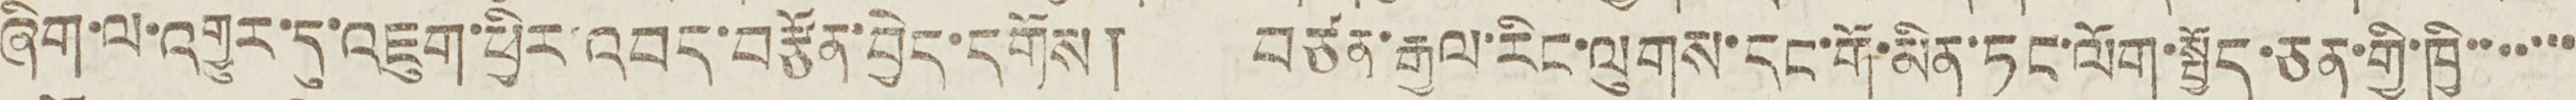ཞིག་ལ་འགྱུར་དུ་འཇུག་ཕྱིར་འབད་བརྩོན་བྱེད་དགོས། བཙན་རྒྱལ་རིང་ལུགས་དང་གོ་མིན་ཏང་ལོག་སྤྱོད་ཅན་གྱི་ཁྱི་་་་་་་
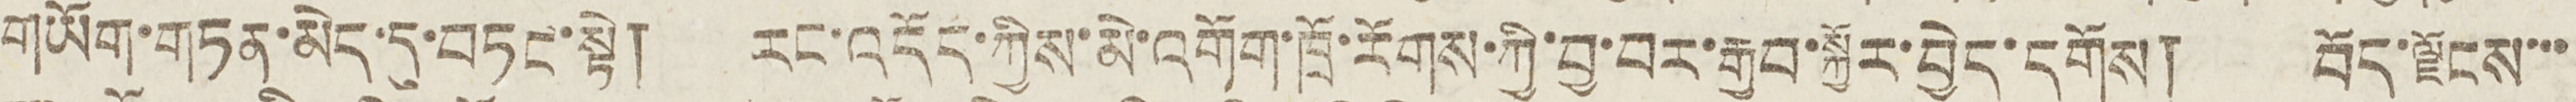གཡོག་གཏན་མེད་དུ་བཏང་སྟེ། རང་འདོད་ཀྱིས་མེ་འགོག་ཁྲོ་རོགས་ཀྱི་བྱ་བར་རྒྱབ་སྐྱོར་བྱེད་དགོས། བོད་ལྗོངས་་་
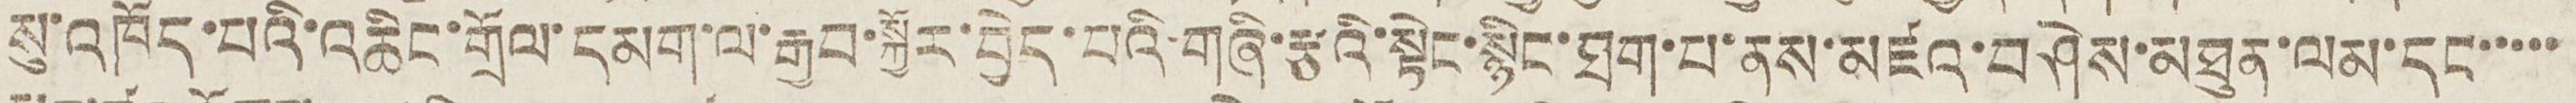སུ་འཁོད་པའི་འཆིང་གྲོལ་དམག་ལ་རྒྱབ་སྐྱོར་བྱེད་པའི་གཞི་རྩའི་སྟེང་སྙིང་ཐག་པ་ནས་མཛའ་བཤེས་མཐུན་ལམ་དང་་་་་
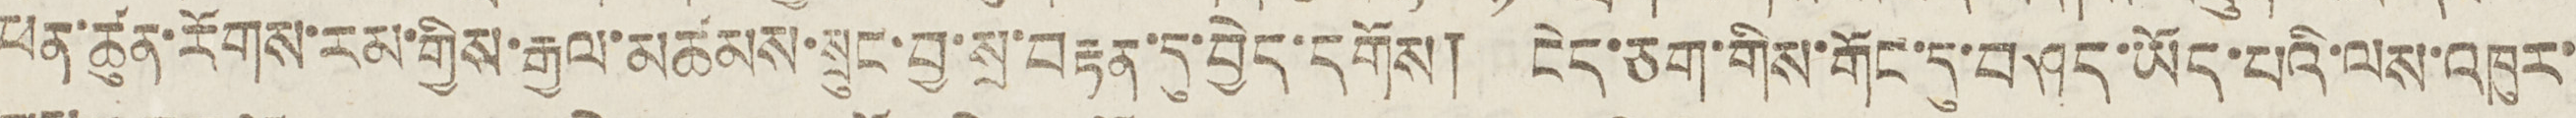ཕན་ཚུན་རོགས་རམ་གྱིས་རྒྱལ་མཚམས་སྲུང་བྱ་སྲ་བརྟན་དུ་བྱེད་དགོས། ངེད་ཅག་གིས་གོང་དུ་བཤད་ཡོད་པའི་ལས་འཁུར་
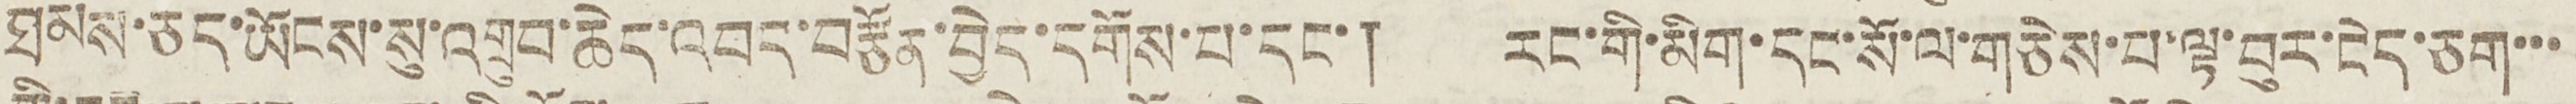ཐམས་ཅད་ཡོངས་སུ་འགྲུབ་ཆེད་འབད་བརྩོན་བྱེད་དགོས་པ་དང་། རང་གི་མིག་དང་སོ་ལ་གཅེས་པ་ལྟ་བུར་ངེད་ཅག་་་
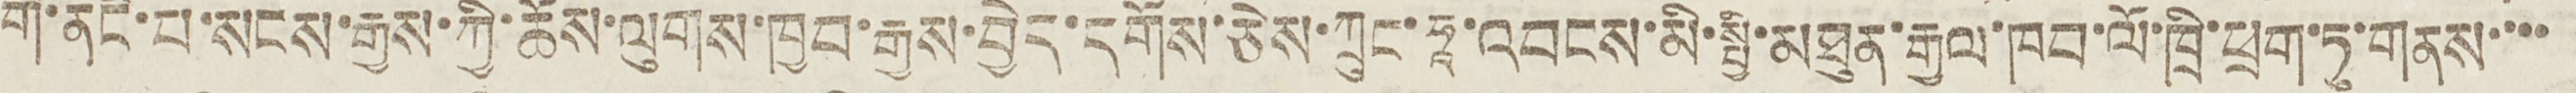གི་ནང་བ་སངས་རྒྱས་ཀྱི་ཆོས་ལུགས་ཁྱབ་རྒྱས་བྱེད་དགོས་ཅེས་ཀྲུང་ཧཱ་འབངས་མི་སྤྱི་མཐུན་རྒྱལ་ཁབ་ལོ་ཁྲི་ཕྲག་ཏུ་གནས་་་་
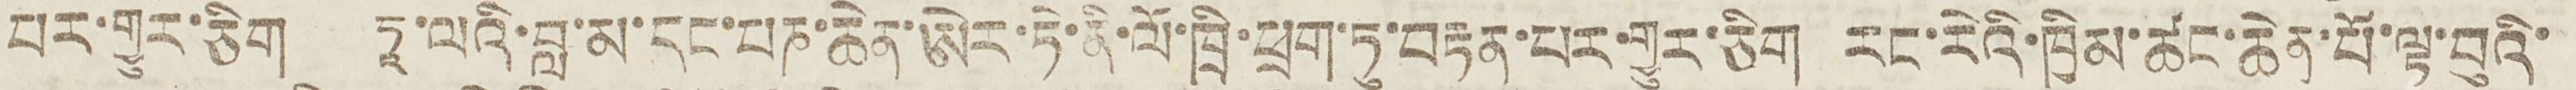པར་གྱུར་ཅིག ཏཱ་ལའི་བླ་མ་དང་པཎ་ཆེན་ཨེར་ཏེ་ནི་ལོ་ཁྲི་ཕྲག་ཏུ་བརྟན་པར་གྱུར་ཅིག རང་རེའི་ཁྱིམ་ཚང་ཆེན་པོ་ལྟ་བུའི་
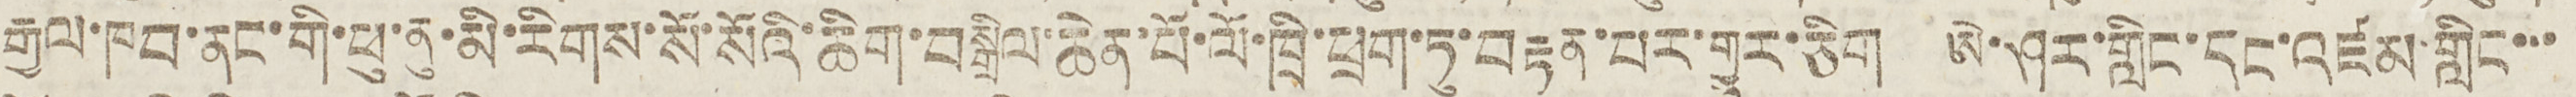རྒྱལ་ཁབ་ནང་གི་ཕུ་ནུ་མི་རིགས་སོ་སོའི་ཆིག་བསྒྲིལ་ཆེན་པོ་ལོ་ཁྲི་ཕྲག་ཏུ་བརྟན་པར་གྱུར་ཅིག ཨེ་ཤར་གླིང་དང་འཛམ་གླིང་་་
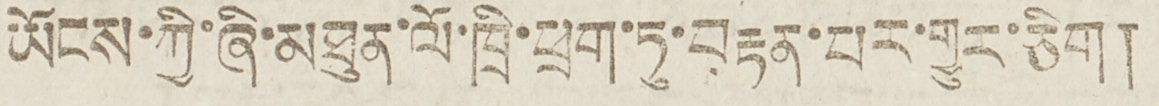ཡོངས་ཀྱི་ཞི་མཐུན་ལོ་ཁྲི་ཕྲག་ཏུ་བརྟན་པར་གྱུར་ཅིག།
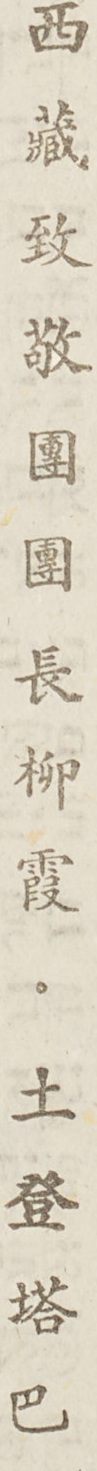西藏致敬團團長柳霞・土登塔巴
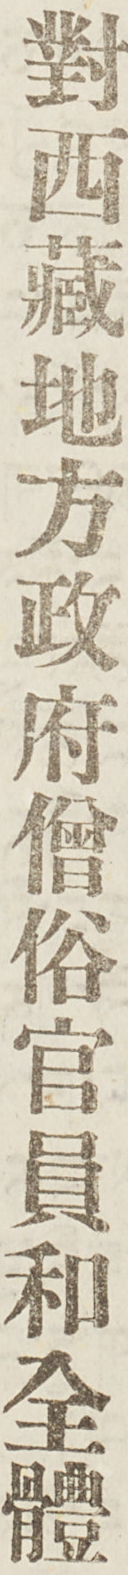對西藏地方政府僧俗官員和全體
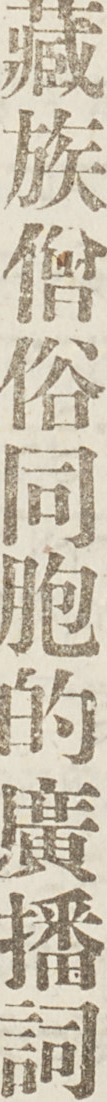藏族僧俗同胞的廣播詞
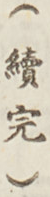（續完）
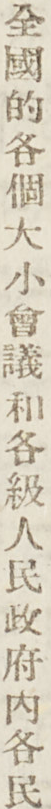全國的各個大小會議和各級人民政府內各民
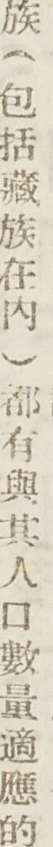族（包括藏族在內）都有與其人口數量適應的
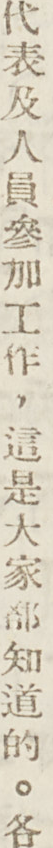代表及人員參加工作，這是大家都知道的。各
